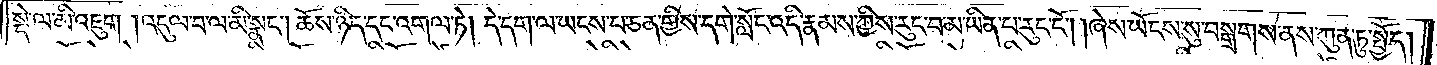སྡེ་ལ་མི་འཇུག །འདུལ་བ་ལ་མི་སྣང༌། ཆོས་ཉིད་དང་འགལ་ཏེ། དེ་དག་ལ་ཡངས་པ་ཅན་གྱིས་དགེ་སློང་འདི་རྣམས་ཀྱིས་རུང་བ་མ་ཡིན་པ་རུང་ངོ༌། །ཞེས་ཡོངས་སུ་བསྒྲགས་ནས་ཀུན་ཏུ་སྤྱོད།
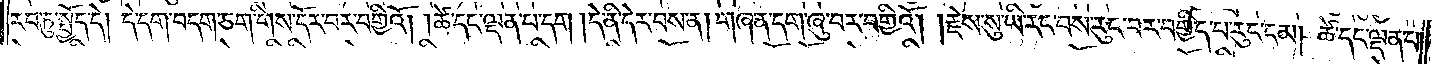རབ་ཏུ་སྤྱོད་དེ། དེ་དག་བདག་ཅག་གིས་དོར་བར་བགྱིའོ། །ཚེ་དང་ལྡན་པ་དག །དེ་ནི་དེར་བས་ན། གཞན་དག་ཞུ་བར་བགྱིའོ། །རྗེས་སུ་ཡི་རང་བས་རུང་བར་བགྱིད་པ་རུང་ངམ། ཚེ་དང་ལྡན་པ་
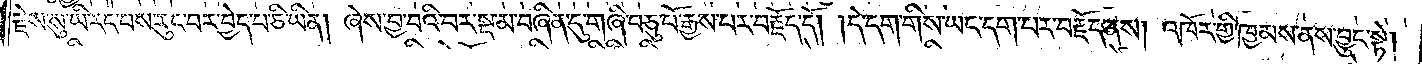རྗེས་སུ་ཡི་རང་བས་རུང་བར་བྱེད་པ་ཅི་ཡིན། ཞེས་བྱ་བའི་བར་སྔ་མ་བཞིན་དུ་གཞི་བཅུ་པོ་རྒྱས་པར་བརྗོད་དོ། །དེ་དག་གིས་ཡང་དག་པར་བརྗོད་ནས། འཁོར་གྱི་ཁྱམས་ནས་བྱུང་སྟེ།
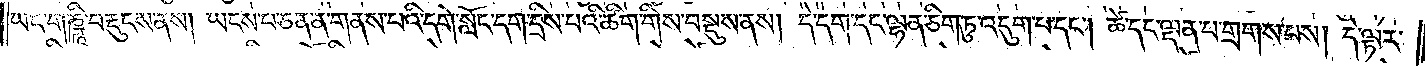ཡང་གཎྜཱི་བརྡུངས་ནས། ཡངས་པ་ཅན་ན་གནས་པའི་དགེ་སློང་དག་དྲིས་པའི་ཚིག་གིས་བསྡུས་ནས། དེ་དག་དང་ལྷན་ཅིག་ཏུ་འདུག་པ་དང༌། ཚེ་དང་ལྡན་པ་གྲགས་པས། དེ་ལྟར་
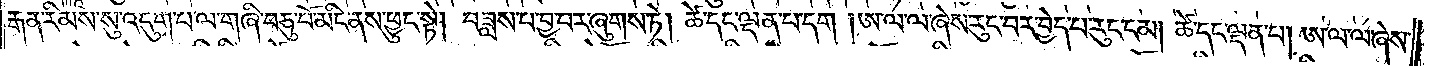རྒན་རིམས་སུ་འདུག་པ་ལ་གཞི་བཅུ་པོ་མིང་ནས་ཕྱུང་སྟེ། བཟླས་པ་བྱ་བར་ཞུགས་ཏེ། ཚེ་དང་ལྡན་པ་དག །ཨ་ལ་ལ་ཞེས་རུང་བར་བྱེད་པ་རུང་ངམ། ཚེ་དང་ལྡན་པ། ཨ་ལ་ལ་ཞེས་
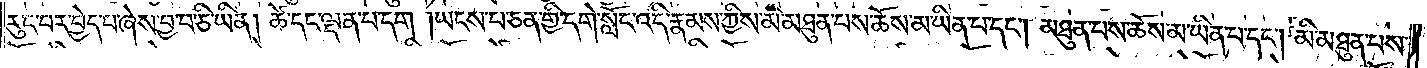རུང་བར་བྱེད་པ་ཞེས་བྱ་བ་ཅི་ཡིན། ཚེ་དང་ལྡན་པ་དག །ཡངས་པ་ཅན་གྱི་དགེ་སློང་འདི་རྣམས་ཀྱིས་མི་མཐུན་པས་ཆོས་མ་ཡིན་པ་དང༌། མཐུན་པས་ཆོས་མ་ཡིན་པ་དང༌། མི་མཐུན་པས་
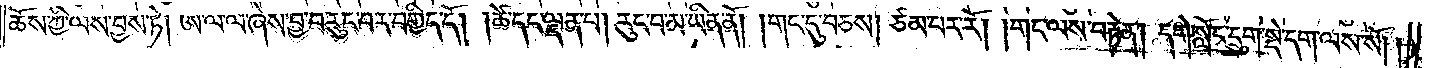ཆོས་ཀྱི་ལས་བྱས་ཏེ། ཨ་ལ་ལ་ཞེས་བྱ་བ་རུང་བར་བགྱིད་དོ། །ཚེ་དང་ལྡན་པ། རུང་བ་མ་ཡིན་ནོ། །གང་དུ་བཅས། ཙམ་པར་རོ། །གང་ལས་བརྟེན། དགེ་སློང་དྲུག་སྡེ་དག་ལས་སོ། །
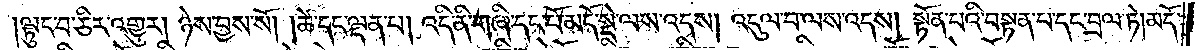།ལྟུང་བ་ཅིར་འགྱུར། ཉེས་བྱས་སོ། །ཚེ་དང་ལྡན་པ། འདི་ནི་གཞི་དང་པོ་མདོ་སྡེ་ལས་འདས། འདུལ་བ་ལས་འདས། སྟོན་པའི་བསྟན་པ་དང་བྲལ་ཏེ། མདོ་
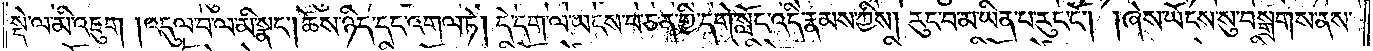སྡེ་ལ་མི་འཇུག །འདུལ་བ་ལ་མ་སྣང༌། ཆོས་ཉིད་དང་འགལ་ཏེ། དེ་དག་ལ་ཡངས་པ་ཅན་གྱི་དགེ་སློང་འདི་རྣམས་ཀྱིས། རུང་བ་མ་ཡིན་པ་རུང་ངོ༌། །ཞེས་ཡོངས་སུ་བསྒྲགས་ནས་
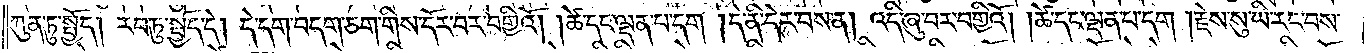ཀུན་ཏུ་སྤྱོད། རབ་ཏུ་སྤྱོད་དེ། དེ་དག་བདག་ཅག་གིས་དོར་བར་བགྱིའོ། །ཚེ་དང་ལྡན་པ་དག །དེ་ནི་དེར་བས་ན། འདི་ཞུ་བར་བགྱིའོ། །ཚེ་དང་ལྡན་པ་དག །རྗེས་སུ་ཡི་རང་བས་
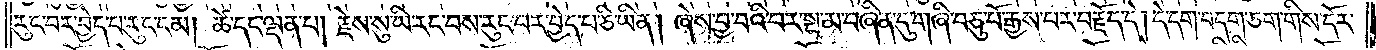རུང་བར་བྱེད་པ་རུང་ངམ། ཚེ་དང་ལྡན་པ། རྗེས་སུ་ཡི་རང་བས་རུང་བར་བྱེད་པ་ཅི་ཡིན། ཞེས་བྱ་བའི་བར་སྔ་མ་བཞིན་དུ་གཞི་བཅུ་པོ་རྒྱས་པར་བརྗོད་དེ། དེ་དག་བདག་ཅག་གིས་དོར་
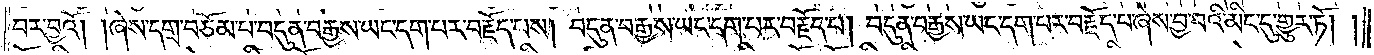བར་བྱའོ། །ཞེས་དགྲ་བཅོམ་པ་བདུན་བརྒྱས་ཡང་དག་པར་བརྗོད་པས། བདུན་བརྒྱས་ཡང་དག་པར་བརྗོད་པ། བདུན་བརྒྱས་ཡང་དག་པར་བརྗོད་པ་ཞེས་བྱ་བའི་མིང་དུ་གྱུར་ཏོ། །
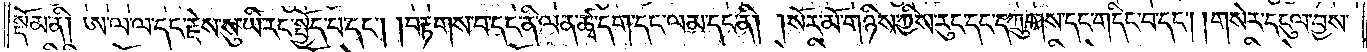སྡོམ་ནི། ཨ་ལ་ལ་དང་རྗེས་སུ་ཡི་རང་སྤྱོད་པ་དང༌། །བརྟགས་བ་དང་ནི་ལན་ཚྭ་དག་དང་ལམ་དང་ནི། །སོར་མོ་གཉིས་ཀྱིས་རུང་དང་དཀྲུགས་དང་གདིང་བ་དང༌། །གསེར་དངུལ་བྱས་
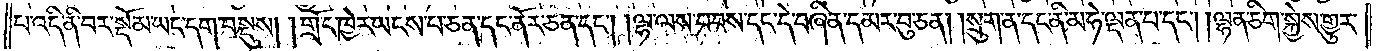པ་འདི་ནི་བར་སྡོམ་ཡང་དག་བསྡུས། །གྲོང་ཁྱེར་ཡངས་པ་ཅན་དང་ནོར་ཅན་དང༌། །ལྷ་ལས་བབས་དང་དེ་བཞིན་དམར་བུ་ཅན། །སྲུག་ན་དང་ནི་མ་ཧེ་ལྡན་པ་དང༌། །ལྷན་ཅིག་སྐྱེས་གྱུར་
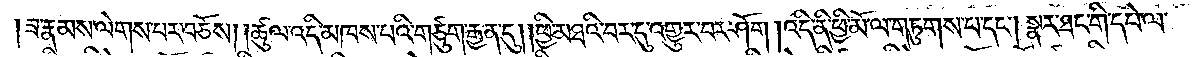།ཟ་རྣམས་ལེགས་པར་བཅོས། །ཚུལ་འདི་མཁས་པའི་གཙུག་རྒྱན་དུ། །ཕྱི་མཐའི་བར་དུ་འགྱུར་པར་ཤོག །འདི་ནི་ཕྱི་མོ་ལ་གཏུགས་པ་དང༌། སྣར་ཐང་གི་དཔེ་ལ་
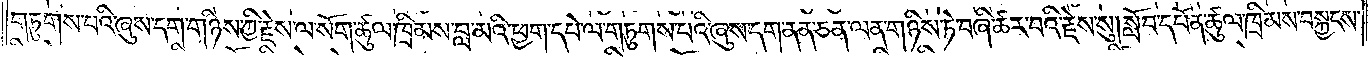གཏུགས་པའི་ཞུས་དག་གཉིས་ཀྱི་རྗེས་ལ་སོག་ཚུལ་ཁྲིམས་བླ་མའི་ཕྱག་དཔེ་ལ་གཏུགས་པའི་ཞུས་དག་ནན་ཅན་ལན་གཉིས་ཏེ་བཞི་ཚར་བའི་རྗེས་སུ། སློབ་དཔོན་ཚུལ་ཁྲིམས་བསྐྱངས་
